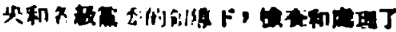央和各級黨委的領導下，檢查和處理了
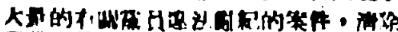大量的有關黨員違法亂紀的案例，清除
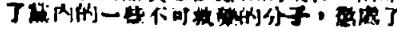了黨內的一些不可救藥的分子，懲處了
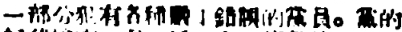一部分犯有各種嚴重錯誤的黨員。黨的
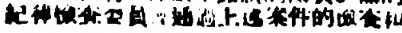紀律檢查委員會通過上述案件的檢查和
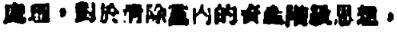處理，對於清除黨內的資產階級思想，
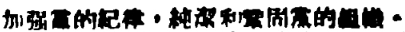加強黨的紀律，純潔和鞏固黨的組織，
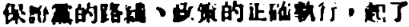保證黨的路綫、政策的正確執行，起了
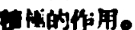積極的作用。
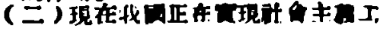（二）現在我國正在實現社會主義工
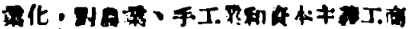業化，對農業、手工業和資本主義工商
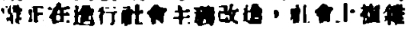業正在進行社會主義改造，社會上複雜
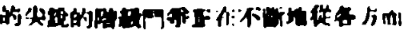的尖銳的階級鬥爭正在不斷地從各方面
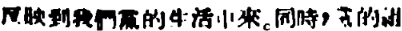反映到我們黨的生活中來。同時，黨的組
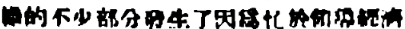織的不少部分發生了因爲忙於領導經濟
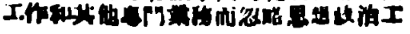工作和其他專門業務而忽略思想政治工
